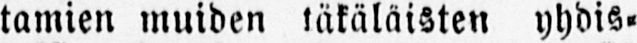tamien muiden täkäläisten yhdis-
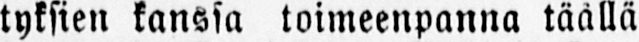tyksien kanssa toimeenpanna täällä
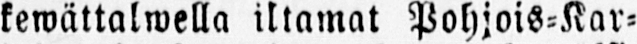kewättalwella iltamat Pohjois-Kar-
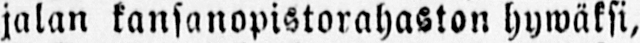jalan kansanopistorahaston hywäksi,
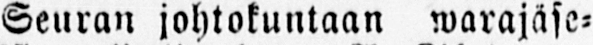Seuran johtokuntaan warajäse-
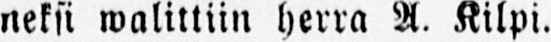neksi walittiin herra A. Kilpi.
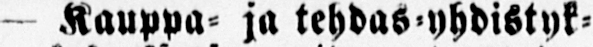— Kauppa- ja tehdas yhdistyk-
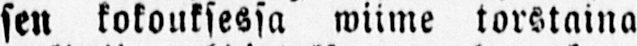sen kokouksessa wiime torstaina
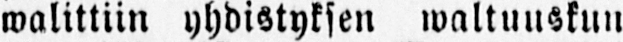walittiin yhdistyksen waltuuskun-
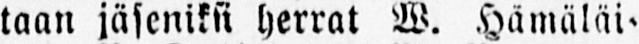taan jäseniksi herrat W. Hämäläi-
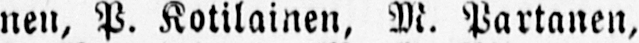nen, P. Kotilainen, M. Partanen,
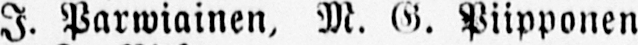I. Parwiainen, M. G. Piipponen
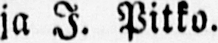ja I. Pitko.
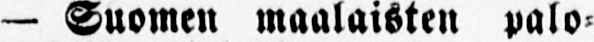— Suomen maalaisten palo-
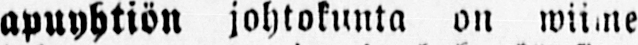apuyhtiön johtokunta on wiime
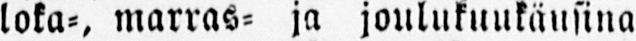loka-, marras- ja joulukuukäusina
